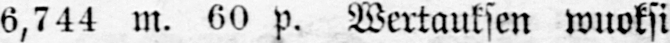6,744 m. 60 p. Wertauksen wuoksi
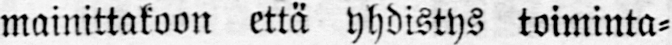mainittakoon että yhdistys toiminta-
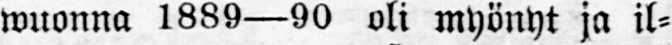wuonna 1889—90 oli myönyt ja il-
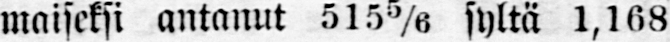maiseksi antanut 5 1 5⅚ syltä 1,168
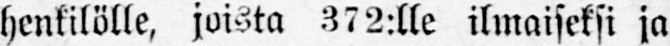henkilölle, joista 372:lle ilmaiseksi ja
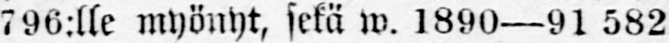796:lle myönyt, sekä w. 1890—91 582
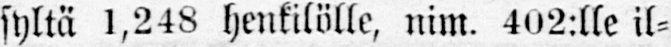syltä 1,248 henkilölle, nim. 402:lle il-
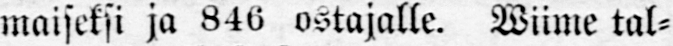maiseksi ja 846 ostajalle. Wiime tal-
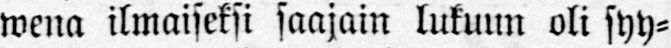wena ilmaiseksi saajain lukuun oli syy-
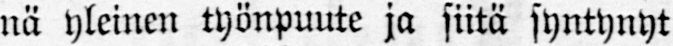nä yleinen työnpuute ja siitä syntynyt
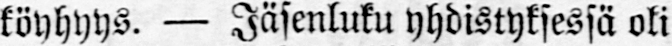köyhyys. — Jäsenluku yhdistyksessä oli
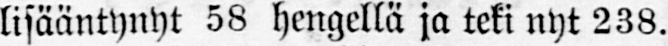lisääntynyt 58 hengellä ja teki nyt 238.
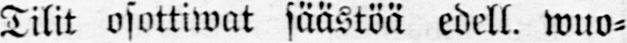Tilit osottiwat säästöä edell. wuo-
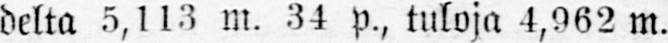delta 5,113 m. 34 p., tuloja 4,962 m.
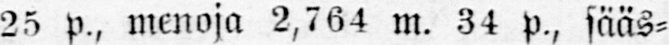25 p., menoja 2,764 m. 34 p., sääs-
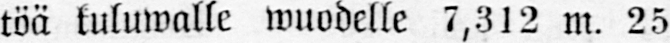töä kuluwalle wuodelle 7,312 m. 25
